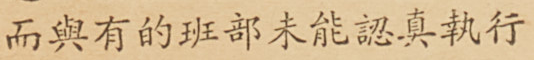而與有的班部未能認真執行
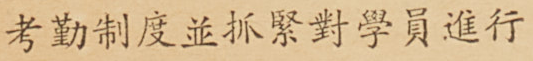考勤制度並抓緊對學員進行
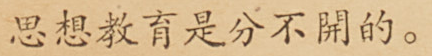思想教育是分不開的。
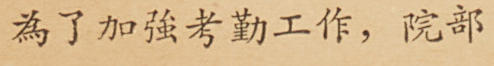爲了加強考勤工作，院部
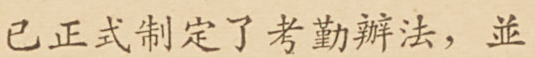已正式制訂了考勤辦法，並
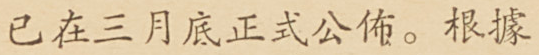已在三月底正式公佈。根據
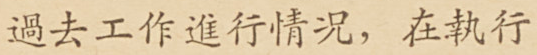過去工作進行情況，在執行
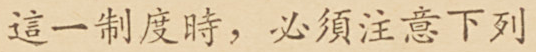這一制度時，必須注意下列
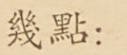幾點：
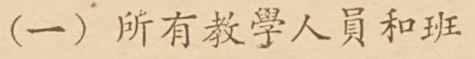（一）所有教學人員和班
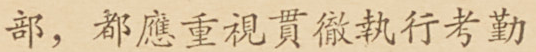部，都應重視貫徹執行考勤
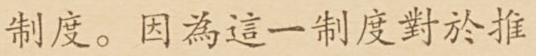制度。因爲這一制度對於推
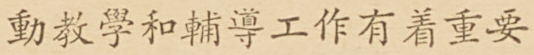動教學和輔導工作有着重要
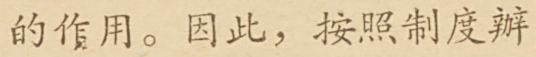的作用。因此，按照制度辦
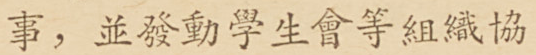事，並發動學生會等組織協
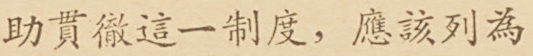助貫徹這一制度，應該列爲
